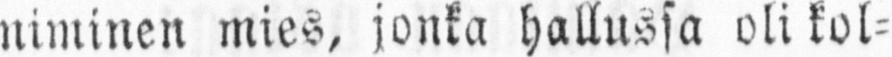niminen mies, jonka hallussa oli kol-
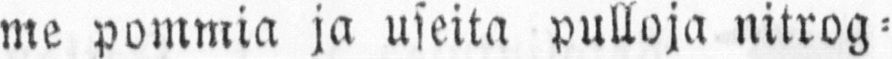me pommia ja useita pulloja nitrog-
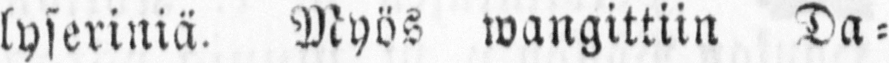lyseriniä. Myös wangittiin Da-
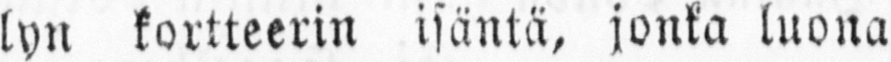lyn kortteerin isäntä, jonka luona
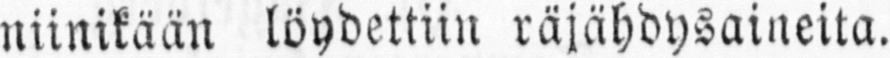niinikään löydettiin räjähdysaineita.
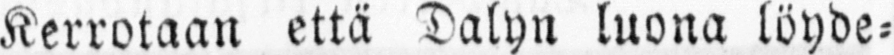Kerrotaan että Dalyn luona löyde-
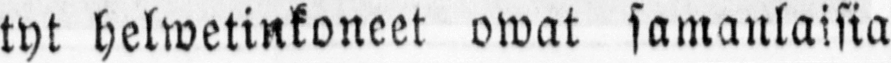tyt helwetinkoneet owat samanlaisia
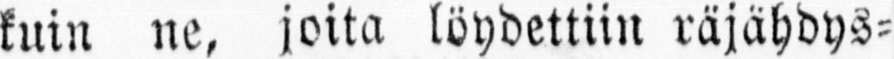kuin ne, joita löydettiin räjähdys-
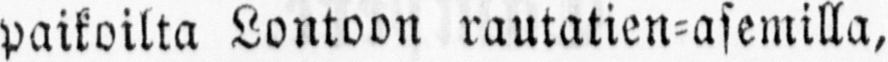paikoilta Lontoon rautatien-asemilla,
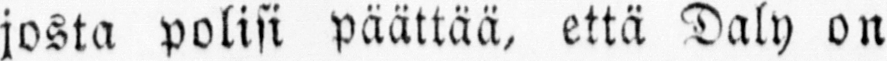josta polisi päättää, että Daly on
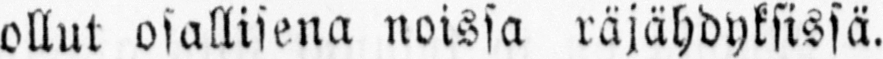ollut osallisena noissa räjähdyksissä.
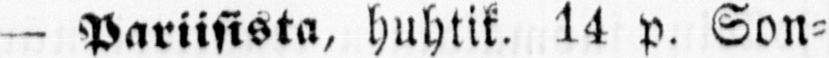— Pariisista, huhtik. 14 p. Son-
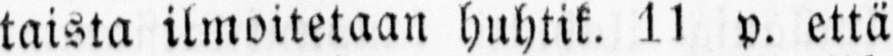taista ilmoitetaan huhtik. 11 p. että
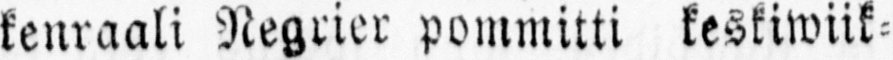kenraali Negrier pommitti keskiwiik-
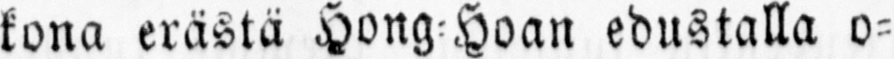kona erästä Hong-Hoan edustalla o-
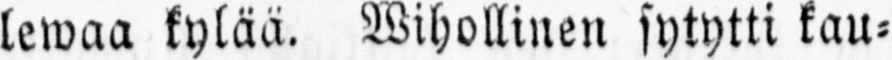lewaa kylää. Wihollinen sytytti kau-
